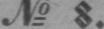№ 8.
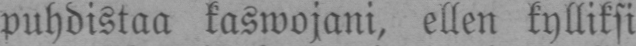puhdistaa kaswojani, ellen kylliksi
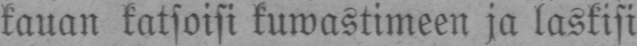kauan katsoisi kuwastimeen ja laskisi
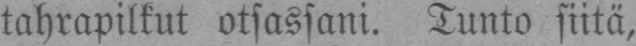tahrapilkut otsassani. Tunto siitä,
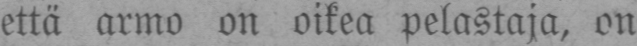että armo on oikea pelastaja, on
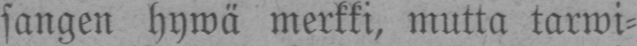sangen hywä merkki, mutta tarwi-
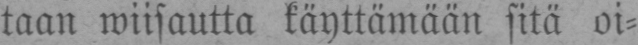taan wiisautta käyttämään sitä oi-
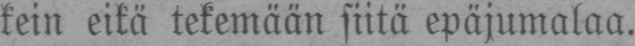kein eikä tekemään siitä epäjumalaa.
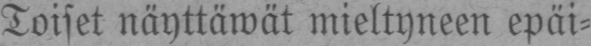Toiset näyttäwät mieltyneen epäi-
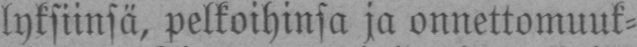lyksiinsä, pelkoihinsa ja onnettomuuk-
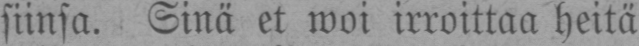siinsa. Sinä et woi irroittaa heitä
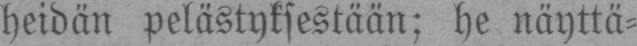heidän pelästyksestään; he näyttä-
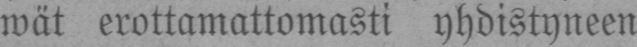wät erottamattomasti yhdistyneen
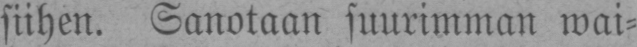siihen. Sanotaan suurimman wai-
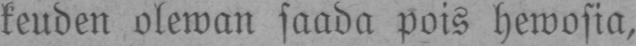keuden olewan saada pois hewosia,
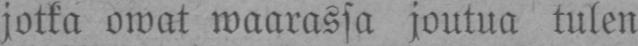jotka owat wäärässä joutua tulen
